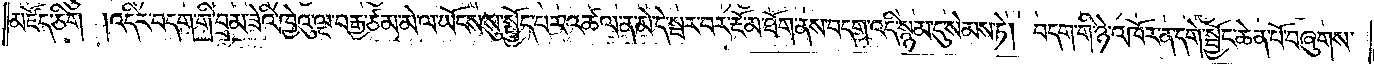མཛོད་ཅིག །འདིར་བདག་གི་བྲམ་ཟེའི་ཁྱེའུ་ལྔ་བརྒྱ་ཙམ་མེ་ལ་ཡོངས་སུ་སྤྱོད་པར་འཚལ་ན་མེ་དེ་སྦར་བར་རྔོ་མ་ཐོག་ནས་བདག་འདི་སྙམ་དུ་སེམས་ཏེ། བདག་གི་ཉེ་འཁོར་ན་དགེ་སྦྱོང་ཆེན་པོ་བཞུགས་
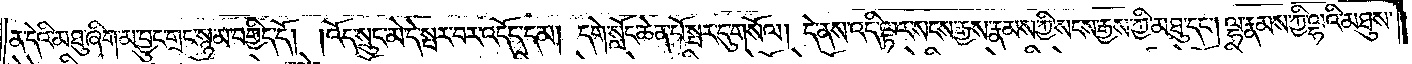ན་དེའི་མཐུ་ཞིག་མ་བྱུང་གྲང་སྙམ་བགྱིད་དོ། །འོད་སྲུང་མེ་དེ་སྤར་བར་འདོད་དམ། དགེ་སློང་ཆེན་པོ་སྤར་དུ་གསོལ། དེ་ནས་འདི་ལྟར་སངས་རྒྱས་རྣམས་ཀྱི་སངས་རྒྱས་ཀྱི་མཐུ་དང༌། ལྷ་རྣམས་ཀྱི་ལྷའི་མཐུས་
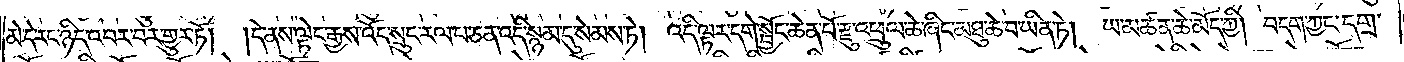མེ་དེ་རང་ཉིད་འབར་བར་གྱུར་ཏོ། །དེ་ནས་ལྟེང་རྒྱས་འོད་སྲུང་རལ་པ་ཅན་འདི་སྙམ་དུ་སེམས་ཏེ། འདི་ལྟར་དགེ་སྦྱོང་ཆེན་པོ་རྫུ་འཕྲུལ་ཆེ་ཞིང་མཐུ་ཆེ་བ་ཡིན་ཏེ། ཡ་མཚན་ཆེ་མོད་ཀྱི། བདག་ཀྱང་དགྲ་
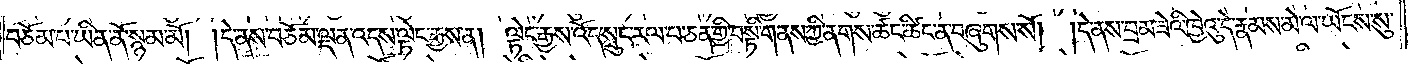བཅོམ་པ་ཡིན་ནོ་སྙམ་མོ། །དེ་ནས་བཅོམ་ལྡན་འདས་ལྟེང་རྒྱས་ན། ལྟེང་རྒྱས་འོད་སྲུང་རལ་པ་ཅན་གྱི་བསྟི་གནས་ཀྱི་ནགས་ཚང་ཚིང་ན་བཞུགས་སོ། །དེ་ནས་བྲམ་ཟེའི་ཁྱེའུ་དེ་རྣམས་མེ་ལ་ཡོངས་སུ་
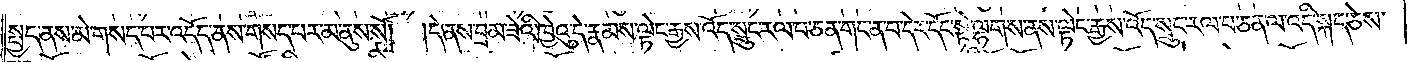སྤྱད་ནས་མེ་གསད་པར་འདོད་ནས་གསད་པར་མ་ནུས་སོ། །དེ་ནས་བྲམ་ཟེའི་ཁྱེའུ་དེ་རྣམས་ལྟེང་རྒྱས་འོད་སྲུང་རལ་པ་ཅན་གང་ན་བ་དེར་དོང་སྟེ་ལྷགས་ནས་ལྟེང་རྒྱས་འོད་སྲུང་རལ་པ་ཅན་ལ་འདི་སྐད་ཅེས་
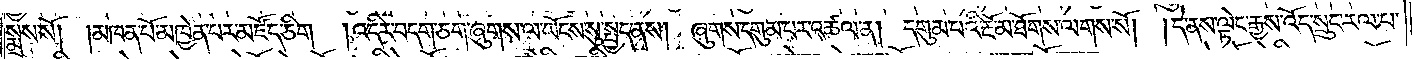སྨྲས་སོ། །མཁན་པོ་མཁྱེན་པར་མཛོད་ཅིག །འདིར་བདག་ཅག་ཞུགས་ལ་ཡོངས་སུ་སྤྱད་ནས། ཞུགས་དགུམ་པར་འཚལ་ན། དགུམ་པའི་རྔོ་མ་ཐོགས་ལགས་སོ། །དེ་ནས་ལྟེང་རྒྱས་འོད་སྲུང་རལ་པ་
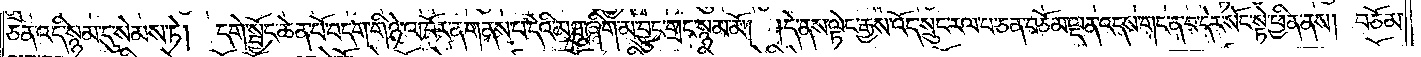ཅན་འདི་སྙམ་དུ་སེམས་ཏེ། དགེ་སྦྱོང་ཆེན་པོ་བདག་གི་ཉེ་འཁོར་ན་གནས་པ་དེའི་མཐུ་ཞིག་མ་བྱུང་གྲང་སྙམ་མོ། །དེ་ནས་ལྟེང་རྒྱས་འོད་སྲུང་རལ་པ་ཅན་བཅོམ་ལྡན་འདས་གང་ན་བ་དེར་སོང་སྟེ་ཕྱིན་ནས། བཅོམ་
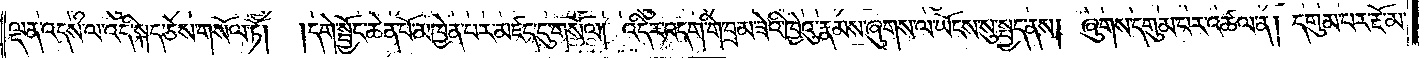ལྡན་འདས་ལ་འདི་སྐད་ཅེས་གསོལ་ཏོ།  །དགེ་སྦྱོང་ཆེན་པོ་མཁྱེན་པར་མཛད་དུ་གསོལ། འདིར་བདག་གི་བྲམ་ཟེའི་ཁྱེའུ་རྣམས་ཞུགས་ལ་ཡོངས་སུ་སྤྱད་ནས། ཞུགས་དགུམ་པར་འཚལ་ན། དགུམ་པར་རྔོ་མ་
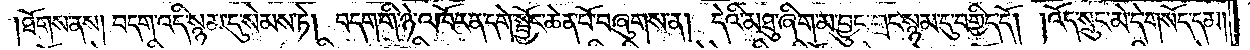།ཐོགས་ནས། བདག་འདི་སྙམ་དུ་སེམས་ཏེ། བདག་གི་ཉེ་འཁོར་ན་དགེ་སྦྱོང་ཆེན་པོ་བཞུགས་ན། དེའི་མཐུ་ཞིག་མ་བྱུང་གྲང་སྙམ་དུ་བགྱིད་དོ། །འོད་སྲུང་མེ་དེ་གསོད་དམ།
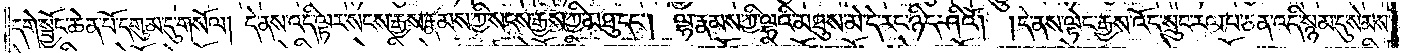དགེ་སྦྱོང་ཆེན་པོ་དགུམ་དུ་གསོལ། དེ་ནས་འདི་ལྟར་སངས་རྒྱས་རྣམས་ཀྱི་སངས་རྒྱས་ཀྱི་མཐུ་དང༌། ལྷ་རྣམས་ཀྱི་ལྷའི་མཐུས་མེ་དེ་རང་ཉིད་ཤིའོ། །དེ་ནས་ལྟེང་རྒྱས་འོད་སྲུང་རལ་པ་ཅན་འདི་སྙམ་དུ་སེམས་
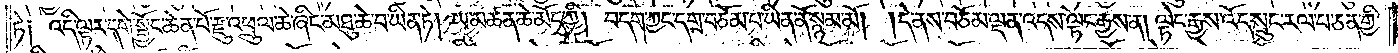ཏེ། འདི་ལྟར་དགེ་སྦྱོང་ཆེན་པོ་རྫུ་འཕྲུལ་ཆེ་ཞིང་མཐུ་ཆེ་བ་ཡིན་ཏེ། ཡ་མཚན་ཆེ་མོད་ཀྱི། བདག་ཀྱང་དགྲ་བཅོམ་པ་ཡིན་ནོ་སྙམ་མོ། །དེ་ནས་བཅོམ་ལྡན་འདས་ལྟེང་རྒྱས་ན། ལྟེང་རྒྱས་འོད་སྲུང་རལ་པ་ཅན་གྱི་
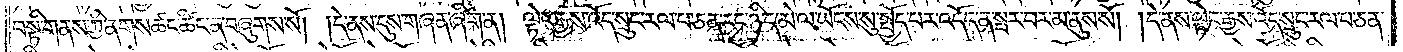བསྟི་གནས་ཀྱི་ནགས་ཚང་ཚིང་ན་བཞུགས་སོ། །དེ་ནས་དུས་གཞན་ཞིག་ན། ལྟེང་རྒྱས་འོད་སྲུང་རལ་པ་ཅན་རང་ཉིད་མེ་ལ་ཡོངས་སུ་སྤྱོད་པར་འདོད་ན་སྤར་བར་མ་ནུས་སོ། །དེ་ནས་ལྟེང་རྒྱས་འོད་སྲུང་རལ་པ་ཅན་
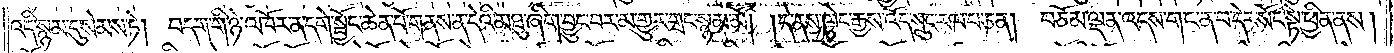འདི་སྙམ་དུ་སེམས་ཏེ། བདག་གི་ཉེ་འཁོར་ན་དགེ་སྦྱོང་ཆེན་པོ་གནས་ན་དེའི་མཐུ་ཞིག་བྱུང་བར་མ་གྱུར་གྲང་སྙམ་མོ། །དེ་ནས་ལྟེང་རྒྱས་འོད་སྲུང་རལ་པ་ཅན། བཅོམ་ལྡན་འདས་གང་ན་བ་དེར་སོང་སྟེ་ཕྱིན་ནས།
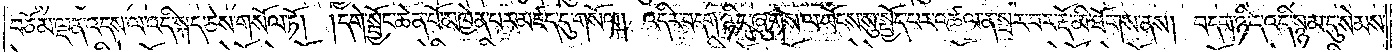བཅོམ་ལྡན་འདས་ལ་འདི་སྐད་ཅེས་གསོལ་ཏོ། །དགེ་སྦྱོང་ཆེན་པོ་མཁྱེན་པར་མཛད་དུ་གསོལ། འདིར་བདག་ཉིད་ཞུགས་ལ་ཡོངས་སུ་སྤྱོད་པར་འཚལ་ན་སྦར་བར་རྡོ་མི་ཐོགས་ནས། བདག་ཉིད་འདི་སྙམ་དུ་སེམས་
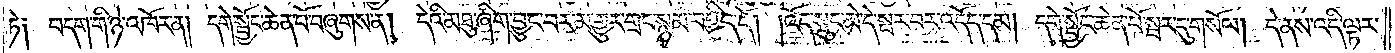ཏེ༑ བདག་གི་ཉེ་འཁོར་ན། དགེ་སྦྱོང་ཆེན་པོ་བཞུགས་ན། དེའི་མཐུ་ཞིག་བྱུང་བར་མ་གྱུར་གྲང་སྙམ་བགྱིད་དོ། །འོད་སྲུང་མེ་དེ་སྤར་བར་འདོད་དམ། དགེ་སྦྱོང་ཆེན་པོ་སྦར་དུ་གསོལ། དེ་ནས་འདི་ལྟར་
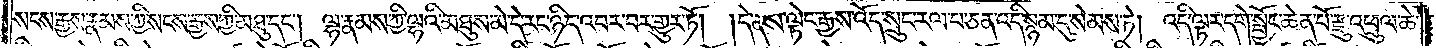སངས་རྒྱས་རྣམས་ཀྱི་སངས་རྒྱས་ཀྱི་མཐུ་དང༌། ལྷ་རྣམས་ཀྱི་ལྷའི་མཐུས་མེ་དེ་རང་ཉིད་འབར་བར་གྱུར་ཏོ། །དེ་ནས་ལྟེང་རྒྱས་འོད་སྲུང་རལ་པ་ཅན་འདི་སྙམ་དུ་སེམས་ཏེ། འདི་ལྟར་དགེ་སྦྱོང་ཆེན་པོ་རྫུ་འཕྲུལ་ཆེ་
